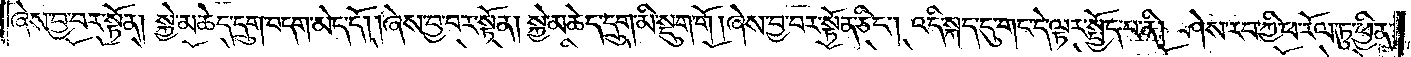ཞེས་བྱ་བར་སྟོན། སྐྱེ་མཆེད་དྲུག་བདག་མེད་དོ། །ཞེས་བྱ་བར་སྟོན། སྐྱེ་མཆེད་དྲུག་མི་སྡུག་གོ། ཞེས་བྱ་བར་སྟོན་ཅིང༌། འདི་སྐད་དུ་གང་དེ་ལྟར་སྤྱོད་པ་ནི། ཤེས་རབ་ཀྱི་ཕ་རོལ་ཏུ་ཕྱིན་
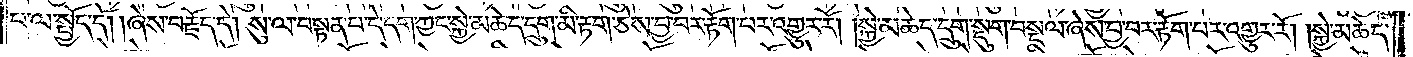པ་ལ་སྤྱོད་དོ། །ཞེས་བརྗོད་དེ། སུ་ལ་བསྟན་པ་དེ་དག་ཀྱང་སྐྱེ་མཆེད་དྲུག་མི་རྟག་ཅེས་བྱ་བར་རྟོག་པར་འགྱུར་རོ། །སྐྱེ་མཆེད་དྲུག་སྡུག་བསྔལ་ཞེས་བྱ་བར་རྟོག་པར་འགྱུར་རོ། །སྐྱེ་མཆེད་
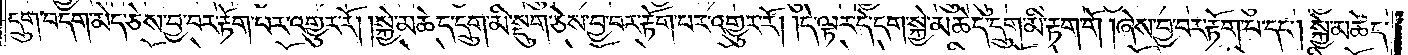དྲུག་བདག་མེད་ཅེས་བྱ་བར་རྟོག་པར་འགྱུར་རོ། །སྐྱེ་མཆེད་དྲུག་མི་སྡུག་ཅེས་བྱ་བར་རྟོག་པར་འགྱུར་རོ། །དེ་ལྟར་དེ་དག་སྐྱེ་མཆེད་དྲུག་མི་རྟག་གོ། ཞེས་བྱ་བར་རྟོག་པ་དང༌། སྐྱེ་མཆེད་
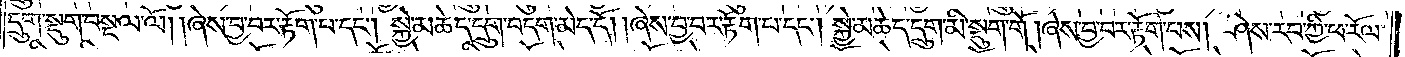དྲུག་སྡུག་བསྔལ་ལོ། །ཞེས་བྱ་བར་རྟོག་པ་དང༌། སྐྱེ་མཆེད་དྲུག་བདག་མེད་དོ། །ཞེས་བྱ་བར་རྟོག་པ་དང༌། སྐྱེ་མཆེད་དྲུག་མི་སྡུག་གོ། ཞེས་བྱ་བར་རྟོག་པས། ཤེས་རབ་ཀྱི་ཕ་རོལ་
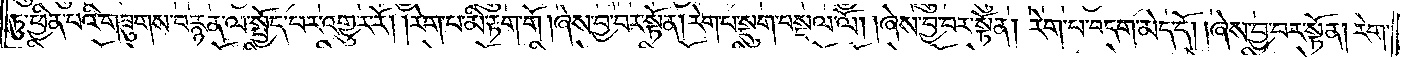ཏུ་ཕྱིན་པའི་གཟུགས་བརྙན་ལ་སྤྱོད་པར་འགྱུར་རོ། །རེག་པ་མི་རྟག་གོ། ཞེས་བྱ་བར་སྟོན། རེག་པ་སྡུག་བསྔལ་ལོ། །ཞེས་བྱ་བར་སྟོན། རེག་པ་བདག་མེད་དོ། །ཞེས་བྱ་བར་སྟོན། རེག་
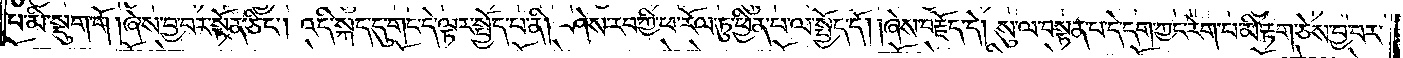པ་མི་སྡུག་གོ། ཞེས་བྱ་བར་སྟོན་ཅིང༌། འདི་སྐད་དུ་གང་དེ་ལྟར་སྤྱོད་པ་ནི། ཤེས་རབ་ཀྱི་ཕ་རོལ་ཏུ་ཕྱིན་པ་ལ་སྤྱོད་དོ། །ཞེས་བརྗོད་དེ། སུ་ལ་བསྟན་པ་དེ་དག་ཀྱང་རེག་པ་མི་རྟག་ཅེས་བྱ་བར་
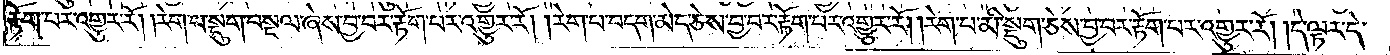རྟོག་པར་འགྱུར་རོ། །རེག་པ་སྡུག་བསྔལ་ཞེས་བྱ་བར་རྟོག་པར་འགྱུར་རོ། །རེག་བ་བདག་མེད་ཅེས་བྱ་བར་རྟོག་པར་འགྱུར་རོ། །རེག་པ་མི་སྡུག་ཅེས་བྱ་བར་རྟོག་པར་འགྱུར་རོ། །དེ་ལྟར་དེ་
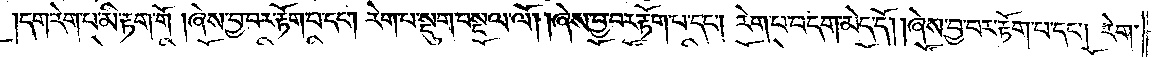དག་རེག་པ་མི་རྟག་གོ། ཞེས་བྱ་བར་རྟོག་པ་དང༌། རེག་པ་སྡུག་བསྔལ་ལོ། །ཞེས་བྱ་བར་རྟོག་པ་དང༌། རེག་པ་བདག་མེད་དོ། །ཞེས་བྱ་བར་རྟོག་པ་དང༌། རེག་
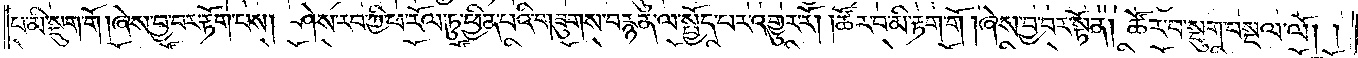པ་མི་སྡུག་གོ། ཞེས་བྱ་བར་རྟོག་པས། ཤེས་རབ་ཀྱི་ཕ་རོལ་ཏུ་ཕྱིན་པའི་གཟུགས་བརྙན་ལ་སྤྱོད་པར་འགྱུར་རོ། །ཚོར་བ་མི་རྟག་གོ། ཞེས་བྱ་བར་སྟོན། ཚོར་བ་སྡུག་བསྔལ་ལོ༎
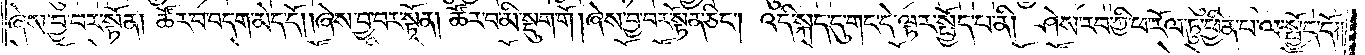ཞེས་བྱ་བར་སྟོན། ཚོར་བ་བདག་མེད་དོ། །ཞེས་བྱ་བར་སྟོན། ཚོར་བ་མི་སྡུག་གོ། ཞེས་བྱ་བར་སྟོན་ཅིང༌། འདི་སྐད་དུ་གང་དེ་ལྟར་སྤྱོད་པ་ནི། ཤེས་རབ་ཀྱི་ཕ་རོལ་ཏུ་ཕྱིན་པ་ལ་སྤྱོད་དོ༎
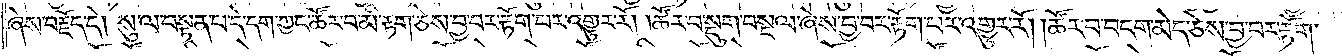ཞེས་བརྗོད་དེ། སུ་ལ་བསྟན་པ་དེ་དག་ཀྱང་ཚོར་བ་མི་རྟག་ཅེས་བྱ་བར་རྟོག་པར་འགྱུར་རོ། །ཚོར་བ་སྡུག་བསྔལ་ཞེས་བྱ་བར་རྟོག་པར་འགྱུར་རོ། །ཚོར་བ་བདག་མེད་ཅེས་བྱ་བར་རྟོག་
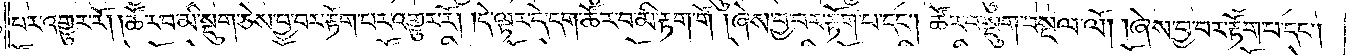པར་འགྱུར་རོ། །ཚོར་བ་མི་སྡུག་ཅེས་བྱ་བར་རྟོག་པར་འགྱུར་རོ། །དེ་ལྟར་དེ་དག་ཚོར་བ་མི་རྟག་གོ། ཞེས་བྱ་བར་རྟོག་པ་དང༌། ཚོར་བ་སྡུག་བསྔལ་ལོ། །ཞེས་བྱ་བར་རྟོག་པ་དང༌།
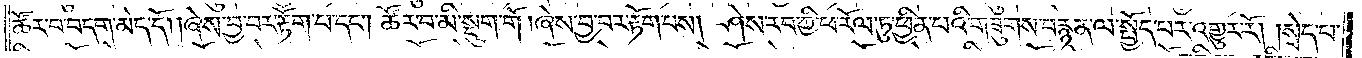ཚོར་བ་བདག་མེད་དོ། །ཞེས་བྱ་བར་རྟོག་པ་དང༌། ཚོར་བ་མི་སྡུག་གོ། ཞེས་བྱ་བར་རྟོག་པས། ཤེས་རབ་ཀྱི་ཕ་རོལ་ཏུ་ཕྱིན་པའི་གཟུགས་བརྙན་ལ་སྤྱོད་པར་འགྱུར་རོ། །སྲེད་པ་
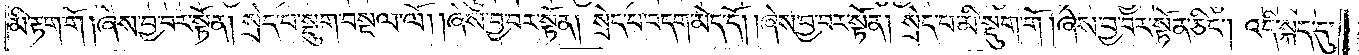མི་རྟག་གོ། ཞེས་བྱ་བར་སྟོན། སྲེད་པ་སྡུག་བསྔལ་ལོ། །ཞེས་བྱ་བར་སྟོན། སྲེད་པ་བདག་མེད་དོ། །ཞེས་བྱ་བར་སྟོན། སྲེད་པ་མི་སྡུག་གོ། ཞེས་བྱ་བར་སྟོན་ཅིང༌། འདི་སྐད་དུ་
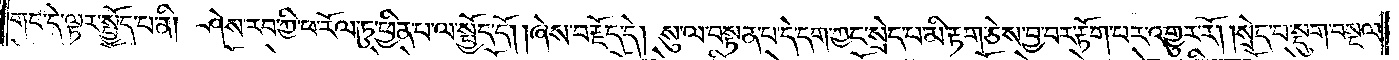གང་དེ་ལྟར་སྤྱོད་པ་ནི། ཤེས་རབ་ཀྱི་ཕ་རོལ་ཏུ་ཕྱིན་པ་ལ་སྤྱོད་དོ། །ཞེས་བརྗོད་དེ། སུ་ལ་བསྟན་པ་དེ་དག་ཀྱང་སྲེད་པ་མི་རྟག་ཅེས་བྱ་བར་རྟོག་པར་འགྱུར་རོ། །སྲེད་པ་སྡུག་བསྔལ་
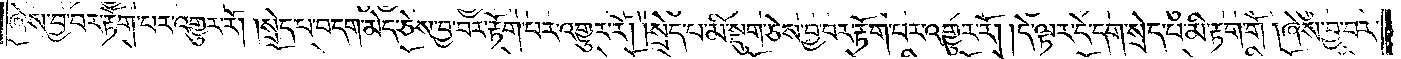ཞེས་བྱ་བར་རྟོག་པར་འགྱུར་རོ། །སྲེད་པ་བདག་མེད་ཅེས་བྱ་བར་རྟོག་པར་འགྱུར་རོ། །སྲེད་པ་མི་སྡུག་ཅེས་བྱ་བར་རྟོག་པར་འགྱུར་རོ། །དེ་ལྟར་དེ་དག་སྲེད་པ་མི་རྟག་གོ། ཞེས་བྱ་བར་
